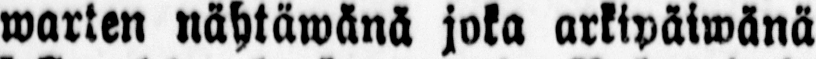warten nähtäwänä joka arkipäiwänä
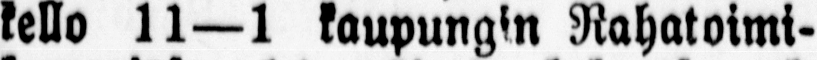kello 11—1 kaupungin Rahatoimi-
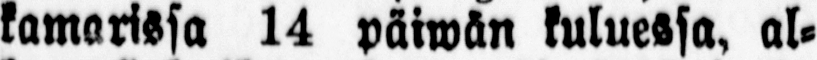kamarissa 14 päiwän kuluessa, al-
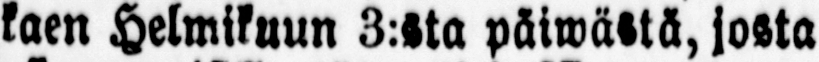käen Helmikuun 3:sta päiwästä, josta
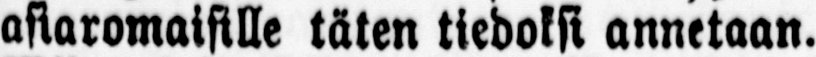asiaromaisille täten tiedoksi annetaan.
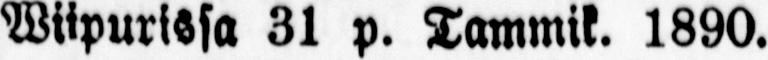Wiipurissa 31 p. Tammik. 1890.
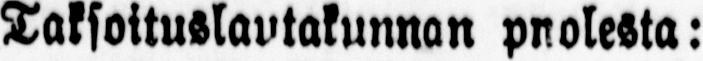Taksoituslautakunnan puolesta:
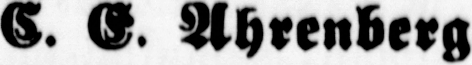C. G. Ahrenberg.
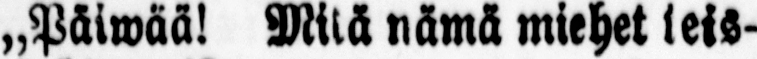„Päiwää! Mitä nämä miehet teis-
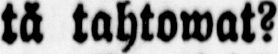tä tahtowat?
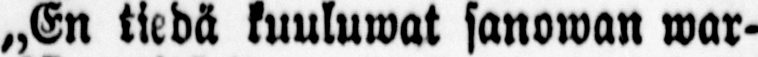„En tiedä kuuluwat sanowan war-
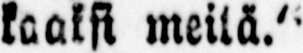kaaksi meitä.'
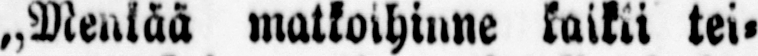„Menkää matkoihinne kaikki tei-
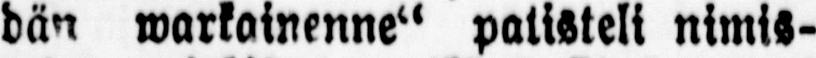dän warkainenne" patisteli nimis-
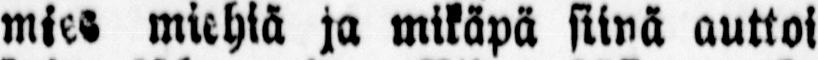mies miehiä ja mikäpä siinä auttoi
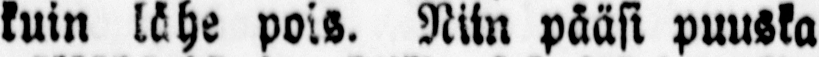kuin lähe pois. Niin pääsi puuska
